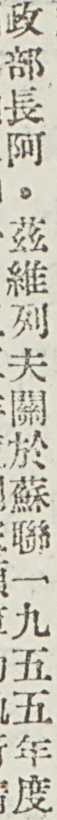政部長阿・茲維列夫關於蘇聯一九五五年度
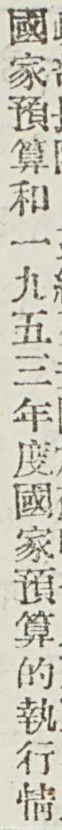國家預算和一九五三年度國家預算的執行情
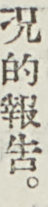況的報告。
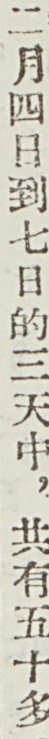二月四日到七日的三天中，共有五十多
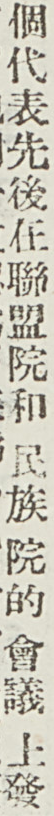個代表先後在聯盟院和 民族 院的 會議 上發
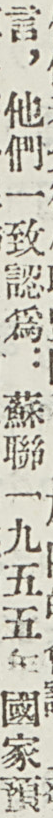言，他們一致認爲：蘇聯一九五五年國家預
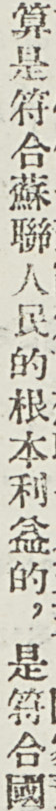算是符合蘇聯人民的根本利益的，是符合國
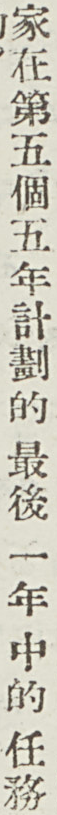家在第五個五年計劃的 最後 一年 中的 任務
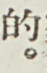的。
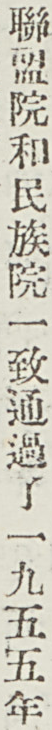聯盟院和民族院一致通過了一九五五年
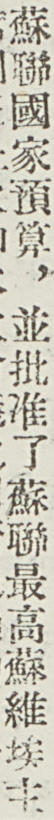蘇聯國家預算，並批准了蘇聯最高蘇維埃主
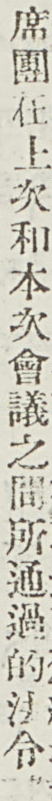席團在上次和本次會議之間所通過的法令。
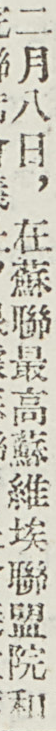二月八日，在蘇聯最高蘇維埃聯盟院和
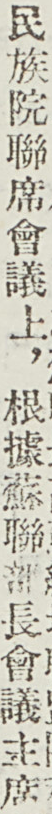民族院聯席會議上，根據蘇聯部長會議主席
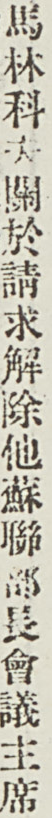馬林科夫關於請求解除他蘇聯部長會議主席
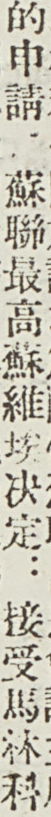的申請，蘇聯最高蘇維埃決定：接受馬林科
